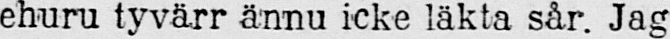ehuru tyvärr ännu icke läkta sår. Jag
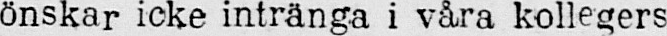önskar icke intränga i våra kollegers
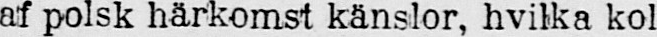af polsk härkomst känslor, hvilka kol
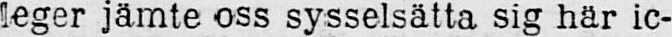leger jämte oss sysselsätta sig här ic-
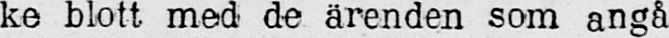ke blott med de ärenden som angå
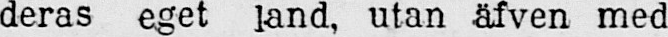deras eget land, utan äfven med
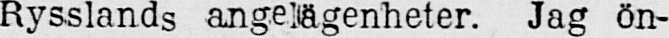Rysslands angelägenheter. Jag ön-
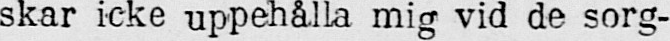skar icke uppehålla mig vid de sorg-
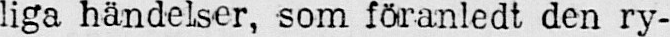liga händelser, som föranledt den ry-
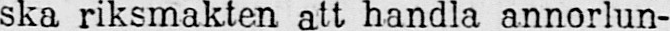ska riksmakten att handla annorlun-
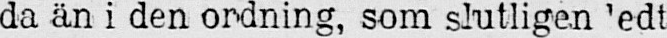da än i den ordning, som slutligen 'edt
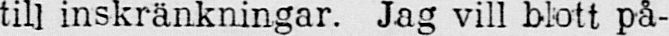till inskränkningar. Jag vill blott på-
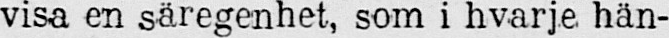visa en säregenhet, som i hvarje. hän-
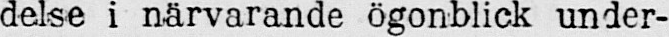delse i närvarande ögonblick under-
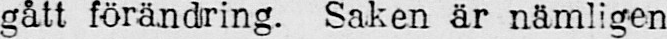gått förändring. Saken är nämligen
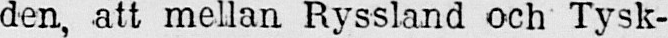den, att mellan Ryssland och Tysk-
